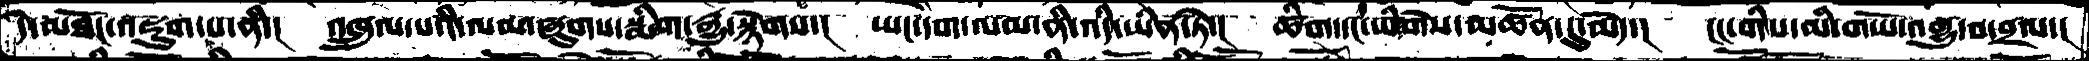དེ་མཐོང་འཇུག་པ་ནི་།  འཁྲུལ་པའི་ལམ་ཞུགས་སྨིག་རྒྱུ་སྙེགས་།  ཡང་དག་ལམ་ནི་འདི་ཡིན་ཏེ་།  ཚིག་དང་ཡི་གེས་མཚོན་དུ་མེད་།  ངང་གིས་མི་གཡོ་འགྱུ་བ་བྲལ་།
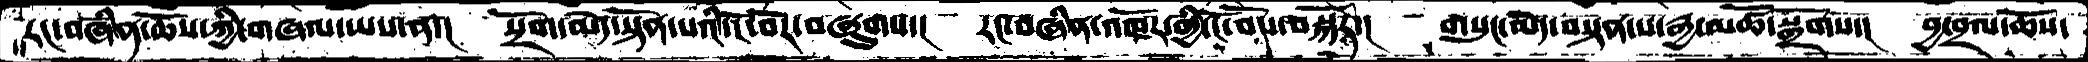རང་བཞིན་ཆོས་ཀྱི་གཞལ་ཡས་ན་།  སྲོག་མེད་སྟོན་པའི་ངོ་བོར་བཞུགས་།  རང་བཞིན་འཁོར་གྱི་ངོ་བོས་བསྐོར་།  གསུང་མེད་བསྟན་པ་རྒྱ་མཚོ་སྒྲོགས་།  བྱ་བྲལ་ཆོས་
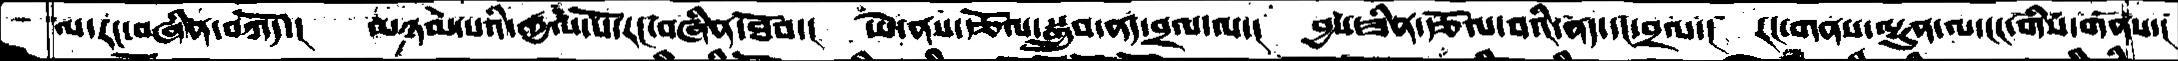ལ་རང་བཞིན་བཀོད་།  མཉམ་པའི་རྒྱལ་པོ་རང་བཞིན་ཐོབ་།  ཡེ་ནས་རྩོལ་སྒྲུབ་ནད་བྲལ་ལ་།  བྱས་ཟིན་རྩོལ་བའི་ནད་དང་བྲལ་།  རང་གནས་ལྷུན་ལ་ངང་གིས་གནས་།
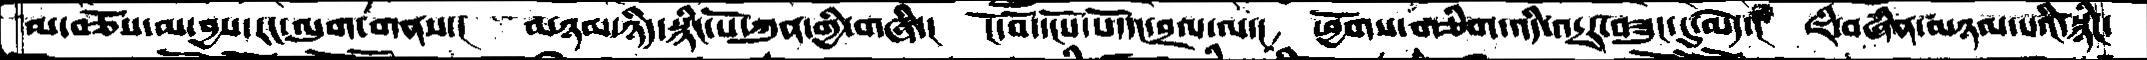མ་བཅོས་མ་བྱས་རང་ལུག་གནས་།  མཉམ་ཉིད་སྙིང་པོ་ཀུན་གྱི་གཞི་།  ངོ་བོ་དངོས་པོ་དང་བྲལ་ལ་།  ཕྱོགས་གཅིག་འདི་འདྲར་བཟུང་དུ་མེད་།  ཇི་བཞིན་མཉམ་པའི་སྙིང་
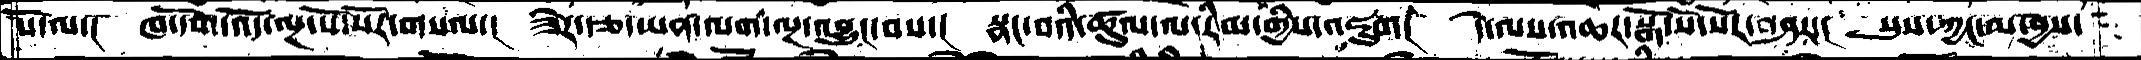པོ་ལ་།  ཁ་དོག་འོད་ལྔ་སོ་སོར་གསལ་།  ཟེར་རྩ་ཡན་ལག་ལྔ་འབྱུང་བས་།  སྣང་བའི་ཚུལ་ལ་རིམ་གྱིས་འཇུག།  དེ་ལས་འཆར་སྒོ་སོ་སོར་བཤད་།  སུས་ཀྱང་མ་བྱས་
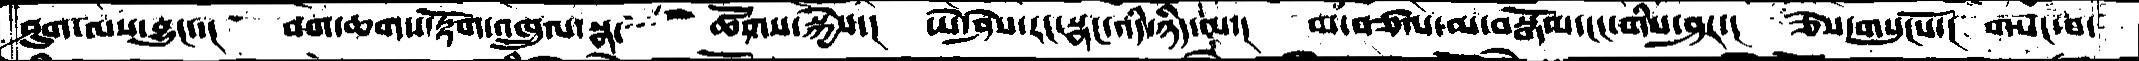ཤུག་ལས་བྱུང་་།  བག་ཆགས་རྟོག་འཁྲུལ་སྣ་  ཚོགས་སྐྱེས་།  ཡེ་ཤེས་རང་སྣང་འདི་ཉིད་ལ་།   མ་བཙལ་མ་བསྒོམ་ངང་གིས་ཤར་།   ཅེས་གསུངསོ་།  གསང་བ་
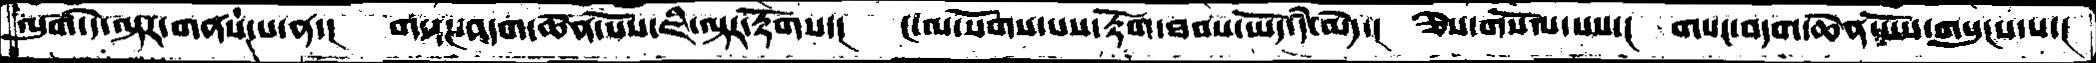ལུག་དེ་ལྟར་གནས་པ་ན་།  གསང་བདག་ཆེན་པོས་ཇི་ལྟར་རྟོགས་།  ང་ལ་སོགས་པས་རྟོག་ཐབས་ཡོད་དཾ་མེད་།  ཅེས་གསོལ་པས་།  གསང་བདག་ཆེན་པོས་གསུངས་པ་།
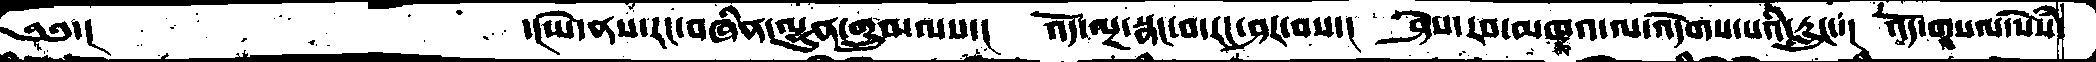༄༅་།        ་།ཡེ་ནས་རང་བཞིན་ལྷུན་གྲུབ་ལས་།  འོད་ལྔ་སྣང་བ་རང་ཤར་བས་།  ཤེས་རབ་མཁའ་ལ་འདེགས་པའི་རླུང་་།  འདོ་གསལ་སེཾས་
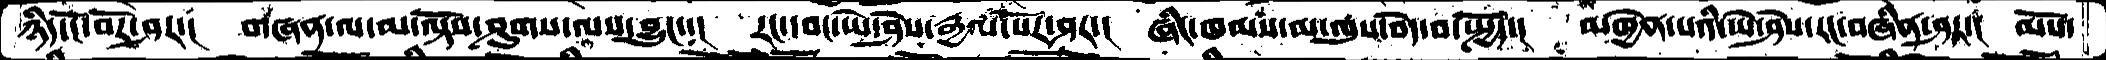ཉིད་ངོ་བོར་ཤར་།  གཞན་ལ་མ་ལྟོས་ཤུགས་ལས་བྱུང་་།  རང་དབང་ཡེ་ཤེས་རྒྱལ་པོར་ཤར་།  ཞིང་ཁམས་མ་ལུས་བདེ་བ་སྤྱོད་།  མཁྱེན་པའི་ཡེ་ཤེས་རང་བཞིན་ཤར་།  མོས་
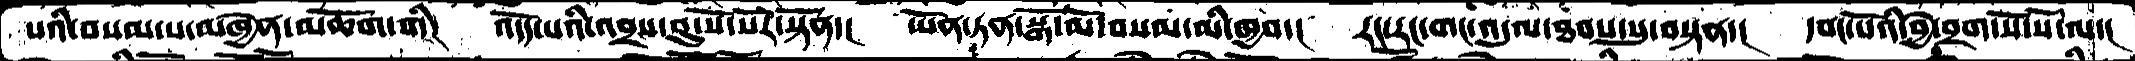པའི་བསམ་པ་མཁྱེན་མཆོག་གི།  འདོད་པའི་འབྲས་བུ་སོ་སོར་སྟོན་།  ཡོན་ཏན་སྒོ་མོ་བསམ་མི་ཁྱབ་།  རང་རང་གང་འདུལ་ཐབས་སུ་བསྟན་།  དབང་པོའི་བྱེ་བྲག་སོ་སོ་ལ་།
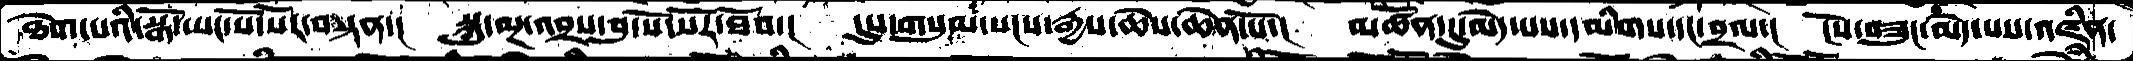ཐེག་པའི་སྒོ་ཡང་སོ་སོར་བསྟན་།  སྐུ་ལྔ་འབྲས་བུ་སོ་སོར་ཐོབ་།  དུས་གསུམ་སངས་རྒྱས་ཆེས་ཆེན་པོ་།  མཚོན་དུ་མེད་པས་དམིགས་དང་བྲལ་།  ངོས་བཟུང་མེད་པས་འཛིན་
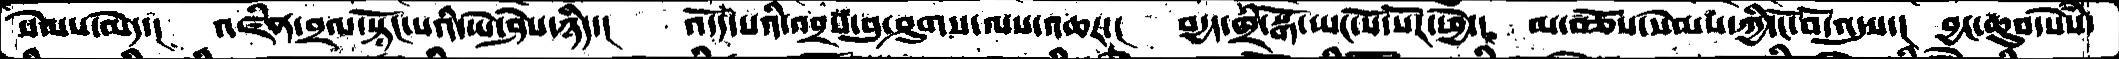སེམས་མེད་།  འཛིན་བྲལ་སྟོང་པའི་ཡེ་ཤེས་ཉིད་།  འདོད་པའི་འབྲས་བུ་ཤུགས་ལས་འཆར་།  བདྱད་ཁྲི་སྒོ་ཡང་སོ་སོར་ཕྱེ་།  མ་བཅོས་སེམས་ཀྱི་ངོ་བོ་འདུས་།  བྱང་ཆུབ་སེཾས་
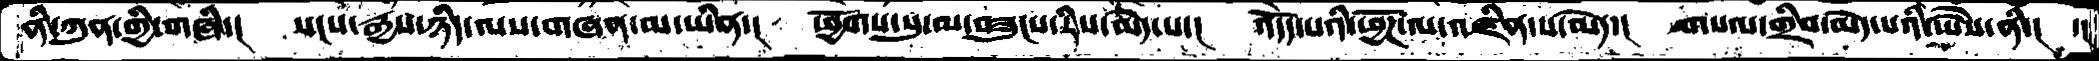ནི་ཀུན་གྱི་གཞི་།  སངས་རྒྱས་ཉིད་ལས་གཞན་མ་ཡིན་།  ཕྱོགས་སུ་མ་བཟུངས་རིས་མེད་པ་།  འདོད་པའི་ཕྱོཌ་ལ་འཛིན་པ་མེད་།  གསལ་གྲིབ་མེད་པའི་ཡཻས་ནི་།   ་།
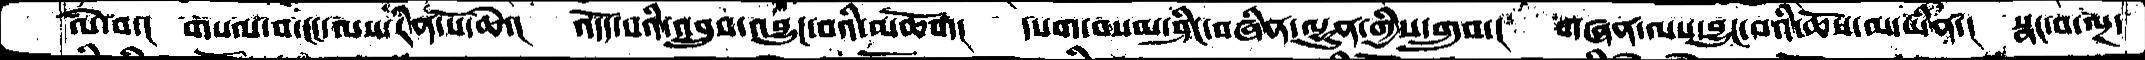ལེ་བ་།  གསལ་བ་ངང་ལས་རིན་པོ་ཆེ་།  འདོད་པའི་འབྲུས་འབྱུང་བའི་མཆོག།  དཔག་བསམ་ཤིང་བཞིན་ལྷུན་གྱིས་གྲུབ་།  གཞན་ལས་བྱུང་བའི་ཆོས་མ་ཡིན་།  སྣང་བ་ལྔ་
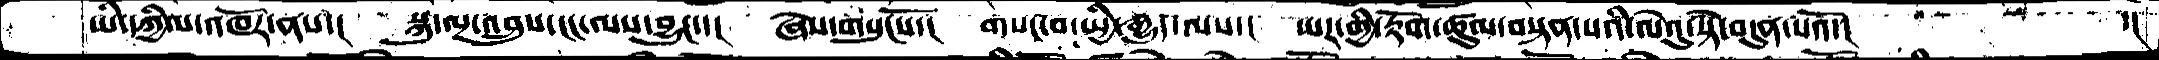ཡི་དཀྱིལ་འཁོར་ནས་།  སྐུ་ལྔ་འབྲུས་ངང་ལས་བྱུང་་།  ཞེས་གསུངསོ་།  གསང་བ་སྤྱི་རྒྱུད་ལས་།  ཡར་གྱི་རྟོག་ཚུལ་བསྟན་པའི་ལེའུ་སྟེ་བདུན་པའོ་།     ་།
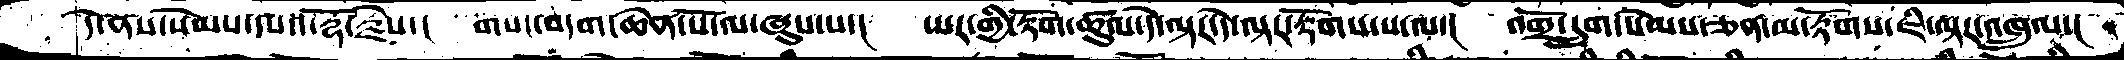དེ་ནས་སེམས་དཔའ་རྡོ་རྗེས་།   གསང་བདག་ཆེན་པོ་ལ་ཞུས་པ་།   ཡར་གྱི་རྟོག་ཚུལ་དེ་ལྟར་དེ་ལྟར་རྟོགས་པ་ལ་།   འགྲོ་དྲུག་སེམས་ཅན་མ་རྟོགས་ཇིིིིིིིིི་ལྟར་འཁྲུལ་།
